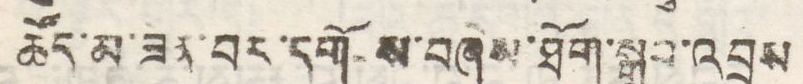ཚོད་མ་ཟན་བར་དགོ ས་བཞེས་ཐོག་སྒྲུབ་འབྲས
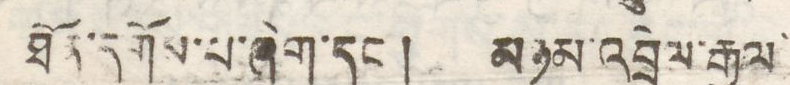ཐོན་དགོས་པ་ཞིག་དང ། མཉམ་འབྲེལ་རྒྱལ
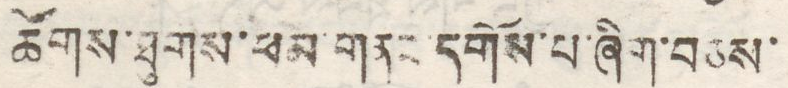ཚོགས་ཐུགས་ཕམ་གནང་དགོས་པ་ཞིག་བཅས་
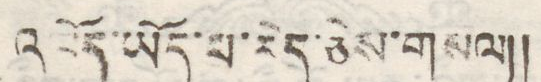འཁོད་ཡོད་པ་རེད་ཅེས་གསལ༎
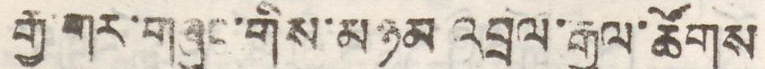རྒྱ་གར་གཞུང་གིས་མཉམ་འབྲེལ་རྒྱལ་ཚོགས
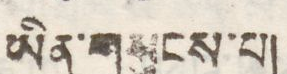ཡིན་གསུངས་པ།
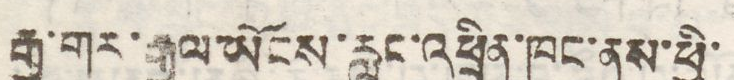རྒྱ་གར་རྒྱལ་ཡོངས་རླུང་འཕྲིན་ཁང་ནས་ཕྱི་
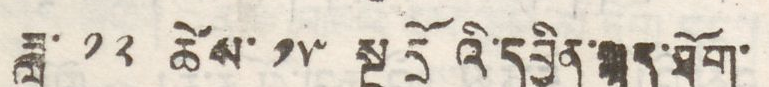ཟླ་ ༡༢ ཚེས་ ༡༥ སྔ དྲོའི་དབྱིན་སྐད་ཐོག་
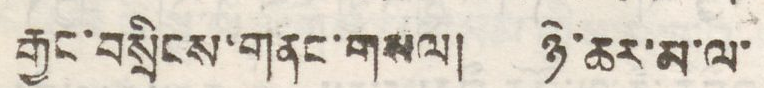རྒྱང་བསྲིངས་གནང་གསལ། ཉེ་ཆར་མ་ལ་
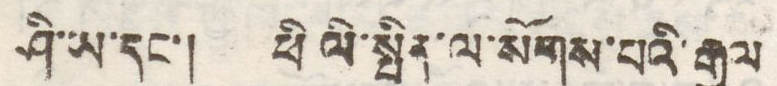ཤི་ཡ་དང་། ཕི ལི་སྤིན་ལ་སོགས་པའི་རྒྱལ
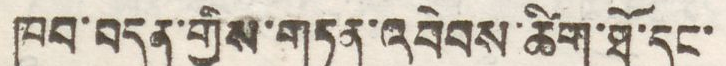ཁབ་བདུན་གྱིས་གཏན་འབེབས་ཚིག་ཐོ་དང་
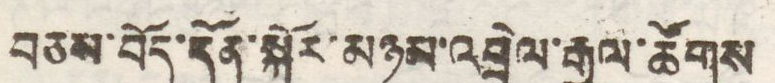བཅས་བོད་དོན་སྐོར་མཉམ་འབྲེལ་རྒྱལ་ཚོགས
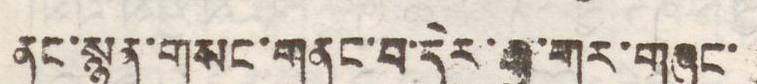ནང་སྙན་གསང་གནང་བ་དེར་རྒྱ་གར་གཞུང་
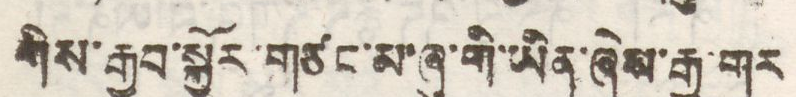གིས་རྒྱབ་སྐྱོར་གཙང་མ་ཞུ་གི་ཡིན་ཞེས་རྒྱ་གར
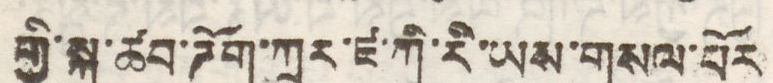གྱི་སྐུ་ཚབ་ཌོག་ཀྲར་ཛ་ཀི་རི་ཡས་གསལ་བོར
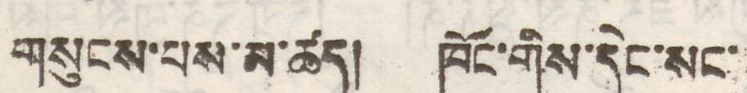གསུངས་པས་མ་ཚད། ཁོང་གིས་དེང་སང་
